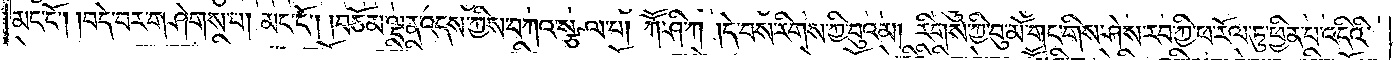མང་ངོ༌། །བདེ་བར་གཤེགས་པ། མང་ངོ༌། །བཅོམ་ལྡན་འདས་ཀྱིས་བཀའ་སྩལ་པ། ཀཽ་ཤི་ཀ །དེ་བས་རིགས་ཀྱི་བུའམ། རིགས་ཀྱི་བུ་མོ་གང་གིས་ཤེས་རབ་ཀྱི་ཕ་རོལ་ཏུ་ཕྱིན་པ་འདིའི་
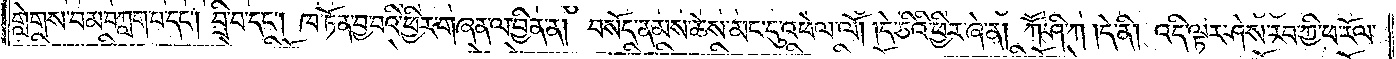གླེགས་བམ་བཀླག་པ་དང༌། བྲི་བ་དང༌། ཁ་ཏོན་བྱ་བའི་ཕྱིར་གཞན་ལ་བྱིན་ན། བསོད་ནམས་ཆེས་མང་དུ་འཕེལ་ལོ། །དེ་ཅིའི་ཕྱིར་ཞེ་ན། ཀཽ་ཤི་ཀ །དེ་ནི། འདི་ལྟར་ཤེས་རབ་ཀྱི་ཕ་རོལ་
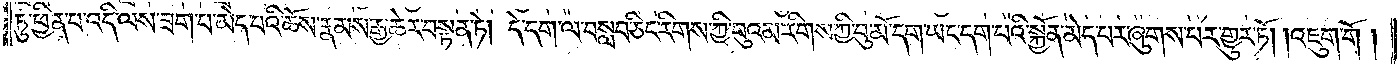ཏུ་ཕྱིན་པ་འདི་ལས་ཟག་པ་མེད་པའི་ཆོས་རྣམས་རྒྱ་ཆེར་བསྟན་ཏེ། དེ་དག་ལ་བསླབ་ཅིང་རིགས་ཀྱི་བུའམ་རིགས་ཀྱི་བུ་མོ་དག་ཡང་དག་པའི་སྐྱོན་མེད་པར་ཞུགས་པར་གྱུར་ཏོ། །འཇུག་གོ །
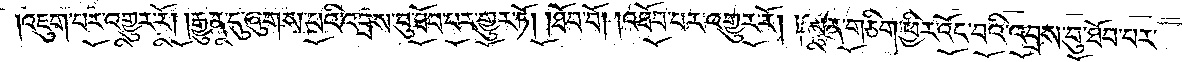འཇུག་པར་འགྱུར་རོ། །རྒྱུན་དུ་ཞུགས་པའི་འབྲས་བུ་ཐོབ་པར་གྱུར་ཏོ། །ཐོབ་བོ། འཐོབ་པར་འགྱུར་རོ། །ལན་གཅིག་ཕྱིར་འོང་བའི་འབྲས་བུ་ཐོབ་པར་
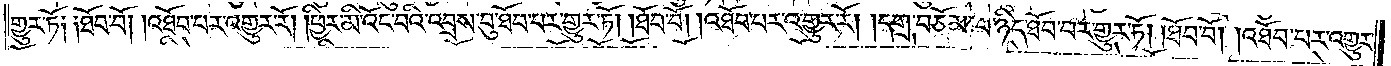གྱུར་ཏོ། །ཐོབ་བོ། འཐོབ་པར་འགྱུར་རོ། །ཕྱིར་མི་འོང་བའི་འབྲས་བུ་ཐོབ་པར་གྱུར་ཏོ། །ཐོབ་བོ། འཐོབ་པར་འགྱུར་རོ། །དགྲ་བཅོམ་པ་ཉིད་ཐོབ་པར་གྱུར་ཏོ། །ཐོབ་བོ། འཐོབ་པར་འགྱུར་
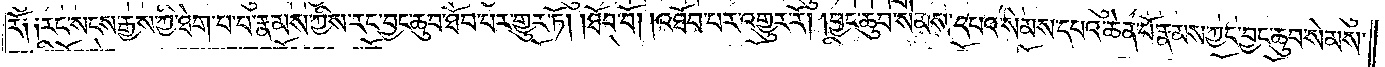རོ། །རང་སངས་རྒྱས་ཀྱི་ཐེག་པ་པ་རྣམས་ཀྱིས་རང་བྱང་ཆུབ་ཐོབ་པར་གྱུར་ཏོ། །ཐོབ་པོ། འཐོབ་པར་འགྱུར་རོ། །བྱང་ཆུབ་སེམས་དཔའ་སེམས་དཔའ་ཆེན་པོ་རྣམས་ཀྱང་བྱང་ཆུབ་སེམས་
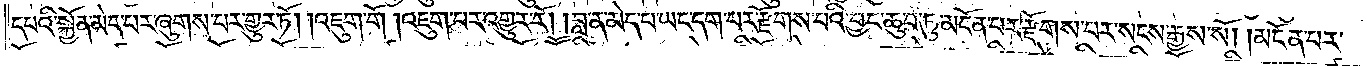དཔའི་སྐྱོན་མེད་པར་ཞུགས་པར་གྱུར་ཏོ། །འཇུག་གོ །འཇུག་པར་འགྱུར་རོ། །བླ་ན་མེད་པ་ཡང་དག་པར་རྫོགས་པའི་བྱང་ཆུབ་ཏུ་མངོན་པར་རྫོགས་པར་སངས་རྒྱས་སོ། །མངོན་པར་
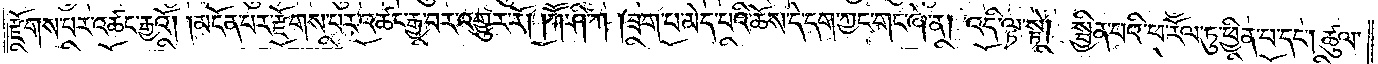རྫོགས་པར་འཚང་རྒྱའོ། །མངོན་པར་རྫོགས་པར་འཚང་རྒྱ་བར་འགྱུར་རོ། །ཀཽ་ཤི་ཀ །ཟག་པ་མེད་པའི་ཆོས་དེ་དག་ཀྱང་གང་ཞེ་ན། འདི་ལྟ་སྟེ། སྦྱིན་པའི་ཕ་རོལ་ཏུ་ཕྱིན་པ་དང༌། ཚུལ་
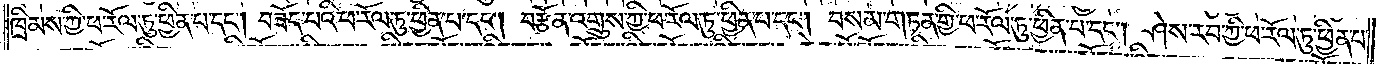ཁྲིམས་ཀྱི་ཕ་རོལ་ཏུ་ཕྱིན་པ་དང༌། བཟོད་པའི་ཕ་རོལ་ཏུ་ཕྱིན་པ་དང༌། བརྩོན་འགྲུས་ཀྱི་ཕ་རོལ་ཏུ་ཕྱིན་པ་དང༌། བསམ་གཏན་གྱི་ཕ་རོལ་ཏུ་ཕྱིན་པ་དང༌། ཤེས་རབ་ཀྱི་ཕ་རོལ་ཏུ་ཕྱིན་པ་
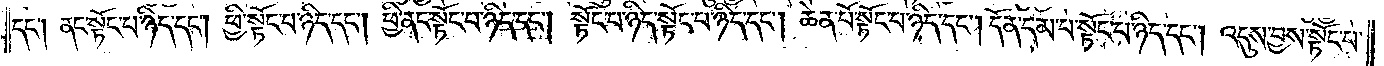དང༌། ནང་སྟོང་པ་ཉིད་དང༌། ཕྱི་སྟོང་པ་ཉིད་དང༌། ཕྱི་ནང་སྟོང་པ་ཉིད་དང༌། སྟོང་པ་ཉིད་སྟོང་པ་ཉིད་དང༌། ཆེན་པོ་སྟོང་པ་ཉིད་དང༌། དོན་དམ་པ་སྟོང་པ་ཉིད་དང༌། འདུས་བྱས་སྟོང་པ་
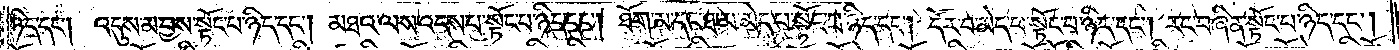ཉིད་དང༌། འདུས་མ་བྱས་སྟོང་པ་ཉིད་དང༌། མཐའ་ལས་འདས་པ་སྟོང་པ་ཉིད་དང༌། ཐོག་མ་དང་ཐ་མ་མེད་པ་སྟོང་པ་ཉིད་དང༌། དོར་བ་མེད་པ་སྟོང་པ་ཉིད་དང༌། རང་བཞིན་སྟོང་པ་ཉིད་དང༌།
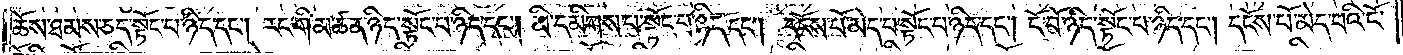ཆོས་ཐམས་ཅད་སྟོང་པ་ཉིད་དང༌། རང་གི་མཚན་ཉིད་སྟོང་པ་ཉིད་དང༌། མི་དམིགས་པ་སྟོང་པ་ཉིད་དང༌། དངོས་པོ་མེད་པ་སྟོང་པ་ཉིད་དང༌། ངོ་བོ་ཉིད་སྟོང་པ་ཉིད་དང༌། དངོས་པོ་མེད་པའི་ངོ་
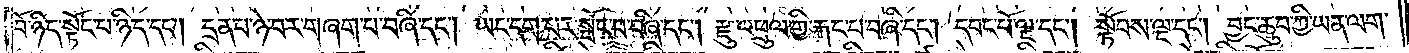བོ་ཉིད་སྟོང་པ་ཉིད་དང༌། དྲན་པ་ཉེ་བར་གཞག་པ་བཞི་དང༌། ཡང་དག་པར་སྤོང་བ་བཞི་དང༌། རྫུ་འཕྲུལ་གྱི་རྐང་པ་བཞི་དང༌། དབང་པོ་ལྔ་དང༌། སྟོབས་ལྔ་དང༌། བྱང་ཆུབ་ཀྱི་ཡན་ལག་
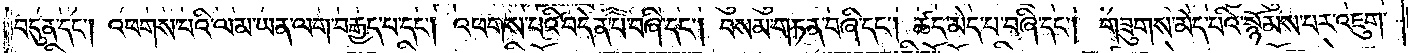བདུན་དང༌། འཕགས་པའི་ལམ་ཡན་ལག་བརྒྱད་པ་དང༌། འཕགས་པའི་བདེན་པ་བཞི་དང༌། བསམ་གཏན་བཞི་དང༌། ཚད་མེད་པ་བཞི་དང༌། གཟུགས་མེད་པའི་སྙོམས་པར་འཇུག་
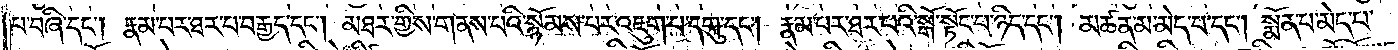པ་བཞི་དང༌། རྣམ་པར་ཐར་པ་བརྒྱད་དང༌། མཐར་གྱིས་གནས་པའི་སྙོམས་པར་འཇུག་པ་དགུ་དང༌། རྣམ་པར་ཐར་པའི་སྒོ་སྟོང་པ་ཉིད་དང༌། མཚན་མ་མེད་པ་དང༌། སྨོན་པ་མེད་པ་
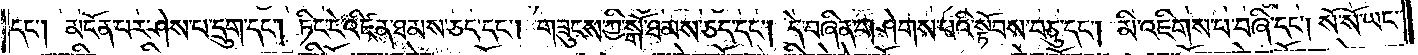དང༌། མངོན་པར་ཤེས་པ་དྲུག་དང༌། ཏིང་ངེ་འཛིན་ཐམས་ཅད་དང༌། གཟུངས་ཀྱི་སྒོ་ཐམས་ཅད་དང༌། དེ་བཞིན་གཤེགས་པའི་སྟོབས་བཅུ་དང༌། མི་འཇིགས་པ་བཞི་དང༌། སོ་སོ་ཡང་
